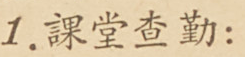1.課堂查勤：
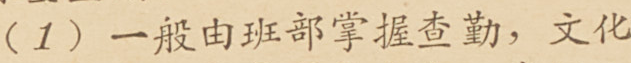（1）一般由班部掌握查勤，文化
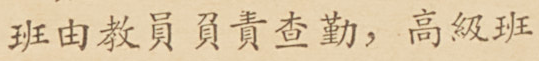班由教員負責查勤，高級班
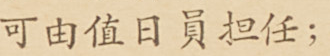可由值日員担任；
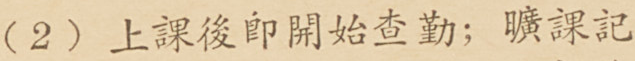（2）上課後卽開始查勤；曠課記
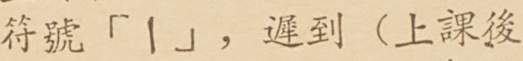符號「＼」，遲到（上課後
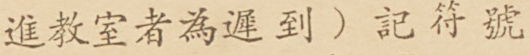進教師者爲遲到）記符號
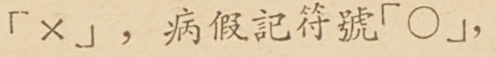「✕」，病假記符號「〇」，
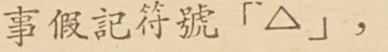事假記符號「△」，
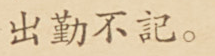出勤不記。
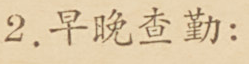2.早晚查勤：
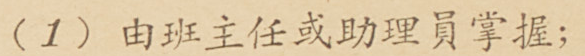（1）由班主任或助理員掌握；
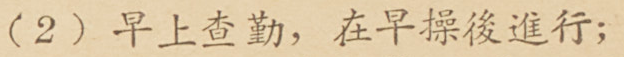（2）早上查勤，在早操後進行；
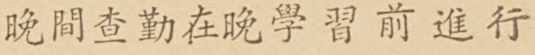晚間查勤在晚學習前進行
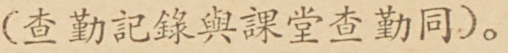（查勤記錄與課堂查勤同）。
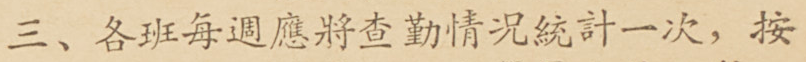三、各班每週應將查勤情況統計一次，按
